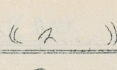(( ༢  ))
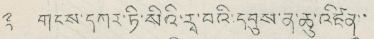༣ གངས་དཀར་ཏི་སིའི་རྭ་བའི་དབུས་ན་ཆུ་འཛིན་་
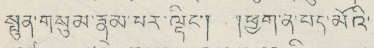སྤུན་གསུམ་རྣམ་པར་ལྡིང་། །ཕྱག་ན་པད་མོའི་
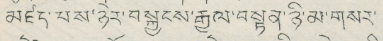མཛད་པས་ཉེར་བསྐྱངས་རྒྱལ་བསྟན་ཉི་མ་གསར་
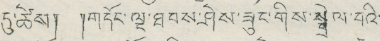དུ་ཚེས། །གདོང་ལྔ་ཐབས་ཤེས་ཟུང་གིས་སྦྲེལ་བའི་
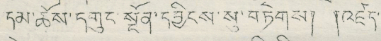དམ་ཆོས་དགུང་སྔོན་དབྱིངས་སུ་བཏེགས། །འཛད་
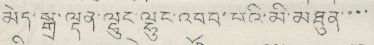མེད་སྒྲ་ལྡན་ལྷུང་ལྷུང་འབབ་པའི་མི་མཐུན་་་་
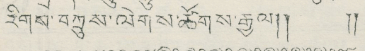རིགས་བཀྲུས་ལེགས་ཚོགས་རྒྱལ།། །།
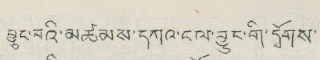བྱུང་བའི་མཚམས་དཀའ་ངལ་བྱུང་གི་དྭོགས་
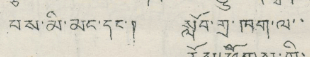བས་མི་མང་དང་། སློབ་གྲྭ་ཁག་ལ་་
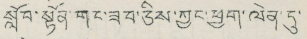སློབ་སྟོན་གང་ཟབ་ཅིས་ཀྱང་ཕྱག་ལེན་དུ་
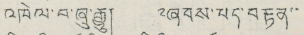འཁེལ་བ་ཞུ་རྒྱུ། ༸ཞབས་པད་བརྟན་་
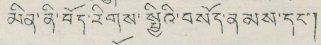མིན་ནི་བོད་རིགས་སྤྱིའི་བསོད་ནམས་དང་།
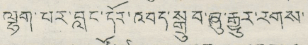ལྷག་པར་བླང་དོར་འབད་སྒྲུབ་ཞུ་རྒྱུར་རགས་
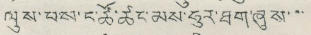ལུས་པས་ང་ཚོ་ཚང་མས་ཧུར་ཐག་ཞུས་་་
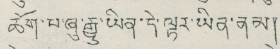ཆོག་པ་ཞུ་རྒྱུ་ཡིན་དེ་ལྟར་ཡིན་ནམ།
